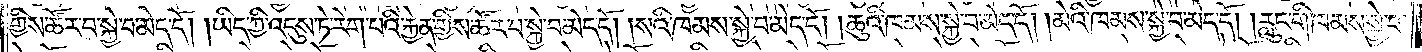གྱིས་ཚོར་བ་སྐྱེ་བ་མེད་དོ། །ཡིད་ཀྱི་འདུས་ཏེ་རེག་པའི་རྐྱེན་གྱིས་ཚོར་བ་སྐྱེ་བ་མེད་དོ། །སའི་ཁམས་སྐྱེ་བ་མེད་དོ། །ཆུའི་ཁམས་སྐྱེ་བ་མེད་དོ། །མེའི་ཁམས་སྐྱེ་བ་མེད་དོ། །རླུང་གི་ཁམས་སྐྱེ་བ་
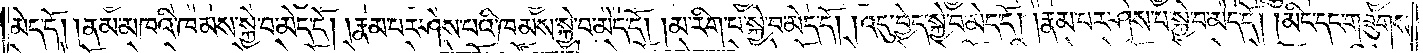མེད་དོ། །ནམ་མཁའི་ཁམས་སྐྱེ་བ་མེད་དོ། །རྣམ་པར་ཤེས་པའི་ཁམས་སྐྱེ་བ་མེད་དོ། །མ་རིག་པ་སྐྱེ་བ་མེད་དོ། །འདུ་བྱེད་སྐྱེ་བ་མེད་དོ། །རྣམ་པར་ཤེས་པ་སྐྱེ་བ་མེད་དོ། །མིང་དང་གཟུགས་
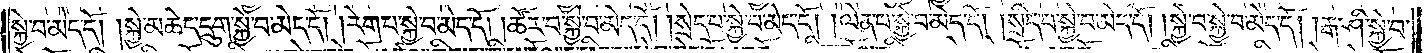སྐྱེ་བ་མེད་དོ། །སྐྱེ་མཆེད་དྲུག་སྐྱེ་བ་མེད་དོ། །རེག་པ་སྐྱེ་བ་མེད་དོ། །ཚོར་བ་སྐྱེ་བ་མེད་དོ། །སྲེད་པ་སྐྱེ་བ་མེད་དོ། །ལེན་པ་སྐྱེ་བ་མེད་དོ། །སྲིད་པ་སྐྱེ་བ་མེད་དོ། །སྐྱེ་བ་སྐྱེ་བ་མེད་དོ། །རྒ་ཤི་སྐྱེ་བ་
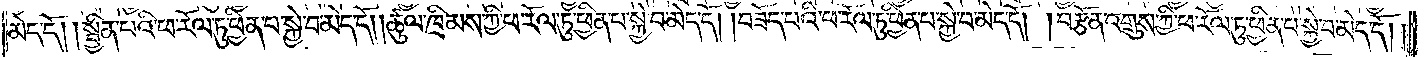མེད་དོ། །སྦྱིན་པའི་ཕ་རོལ་ཏུ་ཕྱིན་པ་སྐྱེ་བ་མེད་དོ། །ཚུལ་ཁྲིམས་ཀྱི་ཕ་རོལ་ཏུ་ཕྱིན་པ་སྐྱེ་བ་མེད་དོ། །བཟོད་པའི་ཕ་རོལ་ཏུ་ཕྱིན་པ་སྐྱེ་བ་མེད་དོ། །བརྩོན་འགྲུས་ཀྱི་ཕ་རོལ་ཏུ་ཕྱིན་པ་སྐྱེ་བ་མེད་དོ། །
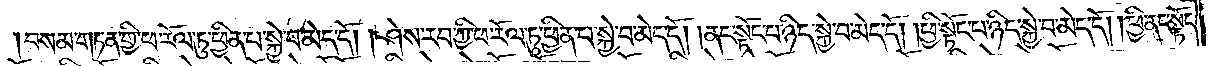བསམ་གཏན་གྱི་ཕ་རོལ་ཏུ་ཕྱིན་པ་སྐྱེ་བ་མེད་དོ། །ཤེས་རབ་ཀྱི་ཕ་རོལ་ཏུ་ཕྱིན་པ་སྐྱེ་བ་མེད་དོ། །ནང་སྟོང་པ་ཉིད་སྐྱེ་བ་མེད་དོ། །ཕྱི་སྟོང་པ་ཉིད་སྐྱེ་བ་མེད་དོ། །ཕྱི་ནང་སྟོང་
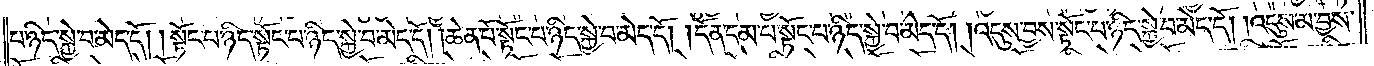པ་ཉིད་སྐྱེ་བ་མེད་དོ། །སྟོང་པ་ཉིད་སྟོང་པ་ཉིད་སྐྱེ་བ་མེད་དོ། །ཆེན་པོ་སྟོང་པ་ཉིད་སྐྱེ་བ་མེད་དོ། །དོན་དམ་པ་སྟོང་པ་ཉིད་སྐྱེ་བ་མེད་དོ། །འདུས་བྱས་སྟོང་པ་ཉིད་སྐྱེ་བ་མེད་དོ། །འདུས་མ་བྱས་
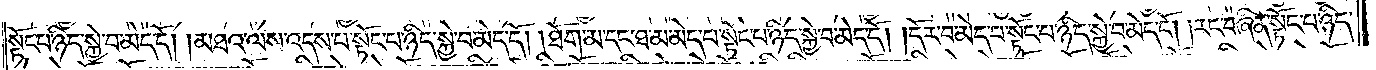སྟོང་པ་ཉིད་སྐྱེ་བ་མེད་དོ། །མཐའ་ལས་འདས་པ་སྟོང་པ་ཉིད་སྐྱེ་བ་མེད་དོ། །ཐོག་མ་དང་ཐ་མ་མེད་པ་སྟོང་པ་ཉིད་སྐྱེ་བ་མེད་དོ། །དོར་བ་མེད་པ་སྟོང་པ་ཉིད་སྐྱེ་བ་མེད་དོ། །རང་བཞིན་སྟོང་པ་ཉིད་
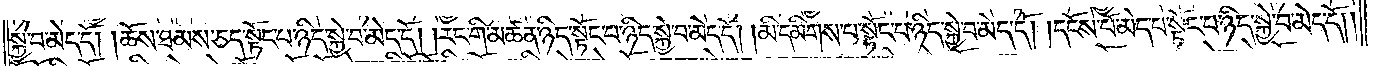སྐྱེ་བ་མེད་དོ། །ཆོས་ཐམས་ཅད་སྟོང་པ་ཉིད་སྐྱེ་བ་མེད་དོ། །རང་གི་མཚན་ཉིད་སྟོང་པ་ཉིད་སྐྱེ་བ་མེད་དོ། །མི་དམིགས་པ་སྟོང་པ་ཉིད་སྐྱེ་བ་མེད་དོ། །དངོས་པོ་མེད་པ་སྟོང་པ་ཉིད་སྐྱེ་བ་མེད་དོ། །
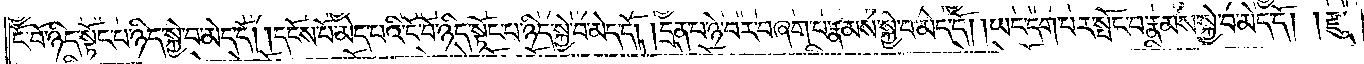ངོ་བོ་ཉིད་སྟོང་པ་ཉིད་སྐྱེ་བ་མེད་དོ། །དངོས་པོ་མེད་པའི་ངོ་བོ་ཉིད་སྟོང་པ་ཉིད་སྐྱེ་བ་མེད་དོ། །དྲན་པ་ཉེ་བར་བཞག་པ་རྣམས་སྐྱེ་བ་མེད་དོ། །ཡང་དག་པར་སྤོང་བ་རྣམས་སྐྱེ་བ་མེད་དོ། །རྫུ་
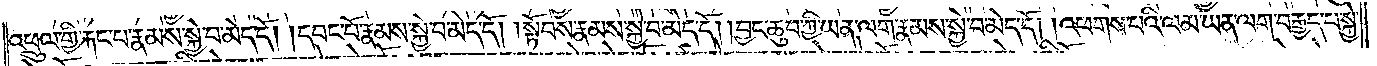འཕྲུལ་གྱི་རྐང་པ་རྣམས་སྐྱེ་བ་མེད་དོ། །དབང་པོ་རྣམས་སྐྱེ་བ་མེད་དོ། །སྟོབས་རྣམས་སྐྱེ་བ་མེད་དོ། །བྱང་ཆུབ་ཀྱི་ཡན་ལག་རྣམས་སྐྱེ་བ་མེད་དོ། །འཕགས་པའི་ལམ་ཡན་ལག་བརྒྱད་པ་སྐྱེ་
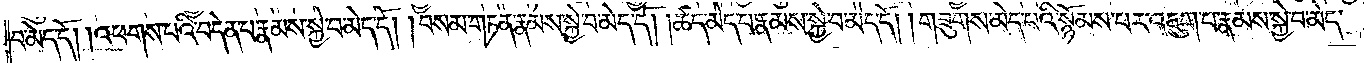བ་མེད་དོ། །འཕགས་པའི་བདེན་པ་རྣམས་སྐྱེ་བ་མེད་དོ། །བསམ་གཏན་རྣམས་སྐྱེ་བ་མེད་དོ། །ཚད་མེད་པ་རྣམས་སྐྱེ་བ་མེད་དོ། །གཟུགས་མེད་པའི་སྙོམས་པར་འཇུག་པ་རྣམས་སྐྱེ་བ་མེད་
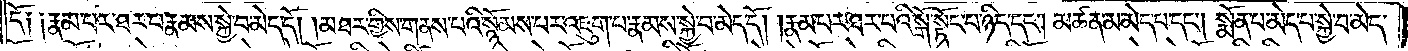དོ༏ ༏རྣམ་པར་ཐར་པ་རྣམས་སྐྱེ་བ་མེད་དོ། །མཐར་གྱིས་གནས་པའི་སྙོམས་པར་འཇུག་པ་རྣམས་སྐྱེ་བ་མེད་དོ། །རྣམ་པར་ཐར་པའི་སྒོ་སྟོང་པ་ཉིད་དང༌། མཚན་མ་མེད་པ་དང༌། སྨོན་པ་མེད་པ་སྐྱེ་བ་མེད་
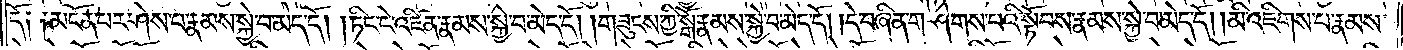དོ༏ ༏མངོན་པར་ཤེས་པ་རྣམས་སྐྱེ་བ་མེད་དོ། །ཏིང་ངེ་འཛིན་རྣམས་སྐྱེ་བ་མེད་དོ། །གཟུངས་ཀྱི་སྒོ་རྣམས་སྐྱེ་བ་མེད་དོ། །དེ་བཞིན་གཤེགས་པའི་སྟོབས་རྣམས་སྐྱེ་བ་མེད་དོ། །མི་འཇིགས་པ་རྣམས་
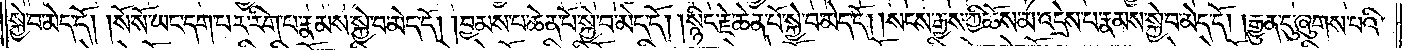སྐྱེ་བ་མེད་དོ། །སོ་སོ་ཡང་དག་པར་རིག་པ་རྣམས་སྐྱེ་བ་མེད་དོ། །བྱམས་པ་ཆེན་པོ་སྐྱེ་བ་མེད་དོ། །སྙིང་རྗེ་ཆེན་པོ་སྐྱེ་བ་མེད་དོ། །སངས་རྒྱས་ཀྱི་ཆོས་མ་འདྲེས་པ་རྣམས་སྐྱེ་བ་མེད་དོ། །རྒྱུན་དུ་ཞུགས་པའི་
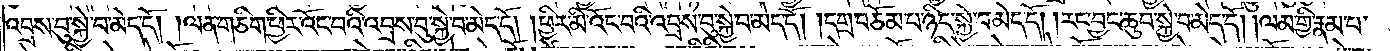འབྲས་བུ་སྐྱེ་བ་མེད་དོ། །ལན་ཅིག་ཕྱིར་འོང་བའི་འབྲས་བུ་སྐྱེ་བ་མེད་དོ། །ཕྱིར་མི་འོང་བའི་འབྲས་བུ་སྐྱེ་བ་མེད་དོ། །དགྲ་བཅོམ་པ་ཉིད་སྐྱེ་བ་མེད་དོ། །རང་བྱང་ཆུབ་སྐྱེ་བ་མེད་དོ། །ལམ་གྱི་རྣམ་པ་
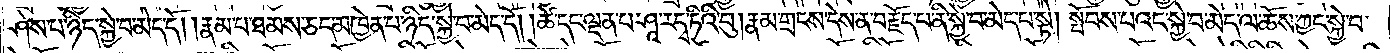ཤེས་པ་ཉིད་སྐྱེ་བ་མེད་དོ། །རྣམ་པ་ཐམས་ཅད་མཁྱེན་པ་ཉིད་སྐྱེ་བ་མེད་དོ། །ཚེ་དང་ལྡན་པ་ཤཱ་ར་དྭ་ཏིའི་བུ། རྣམ་གྲངས་དེས་ན་བརྗོད་པ་ནི་སྐྱེ་བ་མེད་པ་སྟེ། སྤོབས་པའང་སྐྱེ་བ་མེད་ལ་ཆོས་ཀྱང་སྐྱེ་བ་
